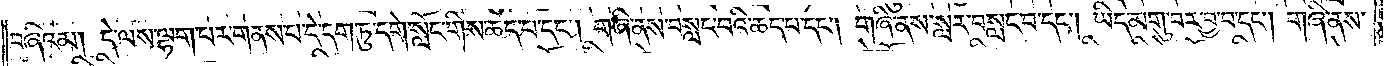བཞིའམ། དེ་ལས་ལྷག་པར་གནས་པ་དེ་དག་ཏུ་དགེ་སློང་གིས་ཆད་པ་དང༌། གཞི་ནས་བསླང་བའི་ཆད་པ་དང༌། གཞི་ནས་སླར་བསླང་བ་དང༌། ཡིད་མགུ་བར་བྱ་བ་དང༌། གཞི་ནས་
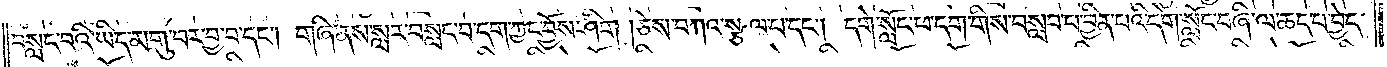བསླང་བའི་ཡིད་མགུ་བར་བྱ་བ་དང༌། གཞི་ནས་སླར་བསླང་བ་དག་ཀྱང་བྱོས་ཤིག །ཅེས་བཀའ་སྩལ་པ་དང༌། དགེ་སློང་པ་དག་གིས་བསླབ་པ་བྱིན་པའི་དགེ་སློང་བཞི་ལ་ཆད་པ་བྱེད་
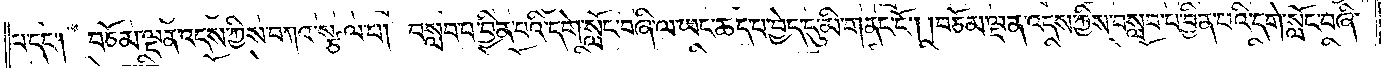པ་དང༌། བཅོམ་ལྡན་འདས་ཀྱིས་བཀའ་སྩལ་པ། བསླབ་པའི་བྱིན་པའི་དགེ་སློང་བཞི་ལ་ཡང་ཆད་པ་བྱེད་དུ་མི་གནང་ངོ༌། །བཅོམ་ལྡན་འདས་ཀྱིས་བསླབ་པ་བྱིན་པའི་དགེ་སློང་བཞི་
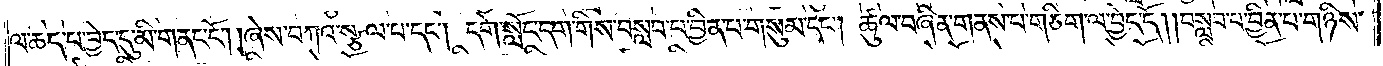ལ་ཆད་པ་བྱེད་དུ་མི་གནང་ངོ༌། །ཞེས་བཀའ་སྩལ་པ་དང༌། དགེ་སློང་དག་གིས་བསླབ་པ་བྱིན་པ་གསུམ་དང༌། ཚུལ་བཞིན་གནས་པ་གཅིག་ལ་བྱེད་དོ། །བསླབ་པ་བྱིན་པ་གཉིས་
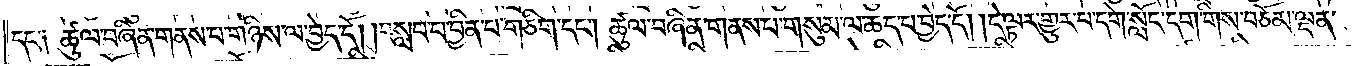དང༌། ཚུལ་བཞིན་གནས་པ་གཉིས་ལ་བྱེད་དོ། །བསླབ་པ་བྱིན་པ་གཅིག་དང༌། ཚུལ་བཞིན་གནས་པ་གསུམ་ལ་ཆད་པ་བྱེད་དོ། །དེ་ལྟར་གྱུར་པ་དགེ་སློང་དག་གིས་བཅོམ་ལྡན་
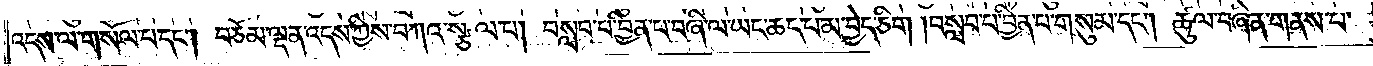འདས་ལ་གསོལ་པ་དང༌། བཅོམ་ལྡན་འདས་ཀྱིས་བཀའ་སྩལ་པ། བསླབ་པ་བྱིན་པ་བཞི་ལ་ཡང་ཆད་པ་མ་བྱེད་ཅིག། །བསླབ་པ་བྱིན་པ་གསུམ་དང༌། ཚུལ་བཞིན་གནས་པ་
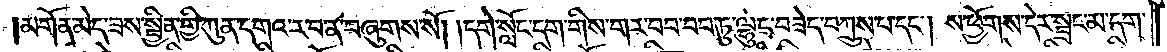མགོན་མེད་ཟས་སྦྱིན་གྱི་ཀུན་དགའ་ར་བ་ན་བཞུགས་སོ། །དགེ་སློང་དག་གིས་གར་བབ་བབ་ཏུ་ལྷུང་བཟེད་བཀྲུས་པ་དང༌། ས་ཕྱོགས་དེར་སྦྲང་མ་དག་
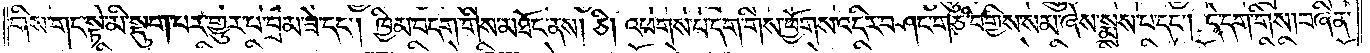གིས་གང་སྟེ་མི་སྡུག་པར་གྱུར་པ་བྲམ་ཟེ་དང༌། ཁྱིམ་བདག་གིས་མཐོང་ནས། ཅི། འཕགས་པ་དག་གིས་ཕྱོགས་འདིར་བཤང་གཅི་བགྱིས་སམ་ཞེས་སྨྲས་པ་དང༌། དེ་དག་གིས། བཞིན་
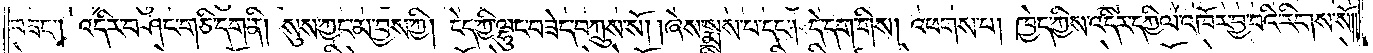བཟང༌། འདིར་བཤང་གཅི་དག་ནི། སུས་ཀྱང་མ་བྱས་ཀྱི། ངེད་ཀྱི་ལྷུང་བཟེད་བཀྲུས་སོ། །ཞེས་སྨྲས་པ་དང༌། དེ་དག་གིས། འཕགས་པ། ཁྱེད་ཀྱིས་འདིར་དཀྱིལ་འཁོར་བྱ་བའི་རིགས་སོ༎
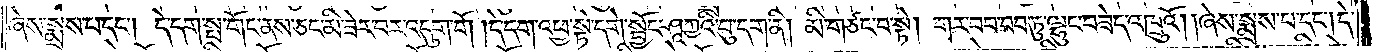ཞེས་སྨྲས་པ་དང༌། དེ་དག་སྤ་གོང་ནས་ཅང་མི་ཟེར་བར་འདུག་གོ །དེ་དག་འཕྱ་སྟེ་དགེ་སྦྱོང་ཤཱཀྱའི་བུ་དག་ནི། མི་གཙང་བ་སྟེ། གར་བབ་བབ་ཏུ་ལྷུང་བཟེད་འཁྲུའོ། །ཞེས་སྨྲས་པ་དང༌། དེ་
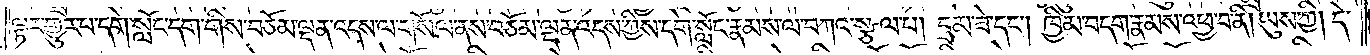ལྟར་གྱུར་པ་དགེ་སློང་དག་གིས་བཅོམ་ལྡན་འདས་ལ་གསོལ་ནས་བཅོམ་ལྡན་འདས་ཀྱིས་དགེ་སློང་རྣམས་ལ་བཀའ་སྩལ་པ། བྲམ་ཟེ་དང༌། ཁྱིམ་བདག་རྣམས་འཕྱ་བ་ནི། ཡུས་ཀྱི། དེ་
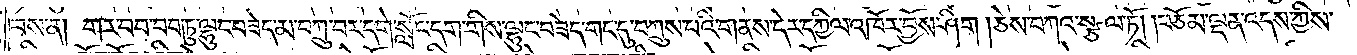བས་ན། གར་བབ་བབ་ཏུ་ལྷུང་བཟེད་མ་བཀྲུ་བར་དགེ་སློང་དག་གིས་ལྷུང་བཟེད་གང་དུ་བཀྲུས་པའི་གནས་དེར་དཀྱིལ་འཁོར་བྱོས་ཤིག །ཅེས་བཀའ་སྩལ་ཏོ། །བཅོམ་ལྡན་འདས་ཀྱིས་
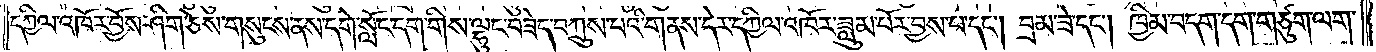དཀྱིལ་འཁོར་བྱོས་ཤིག་ཅེས་གསུངས་ནས་དགེ་སློང་དག་གིས་ལྷུང་བཟེད་བཀྲུས་པའི་གནས་དེར་དཀྱིལ་འཁོར་ཟླུམ་པོར་བྱས་པ་དང༌། བྲམ་ཟེ་དང༌། ཁྱིམ་བདག་དག་གཙུག་ལག་
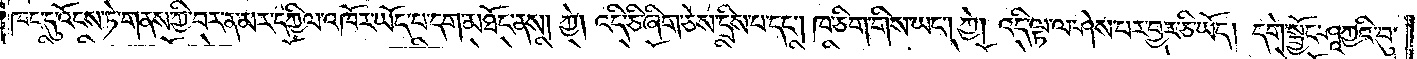ཁང་དུ་འོངས་ཏེ་གནས་ཀྱི་བར་ན་མར་དཀྱིལ་འཁོར་ཡོད་པ་དག་མཐོང་ནས། ཀྱེ། འདི་ཅི་ཞིག་ཅེས་དྲིས་པ་དང༌། ཁ་ཅིག་གིས་ཡང༌། ཀྱེ། འདི་ལྟ་ལ་ཤེས་པར་བྱར་ཅི་ཡོད། དགེ་སྦྱོང་ཤཱཀྱའི་བུ་
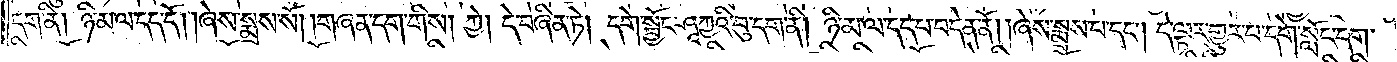དག་ནི། ཉི་མ་ལ་དད་དོ། །ཞེས་སྨྲས་སོ། །གཞན་དག་གིས། ཀྱེ། དེ་བཞིན་ཏེ། དགེ་སྦྱོང་ཤཱཀྱའི་བུ་དག་ནི། ཉི་མ་ལ་དད་པ་བདེན་ནོ། །ཞེས་སྨྲས་པ་དང༌། དེ་ལྟར་གྱུར་པ་དགེ་སློང་དག་
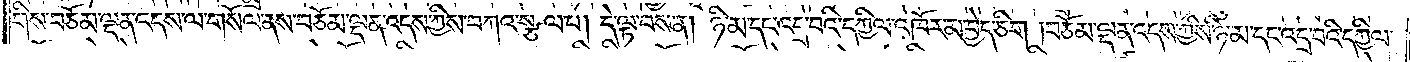གིས་བཅོམ་ལྡན་འདས་ལ་གསོལ་ནས་བཅོམ་ལྡན་འདས་ཀྱིས་བཀའ་སྩལ་པ། དེ་ལྟ་བས་ན། ཉི་མ་དང་འདྲ་བའི་དཀྱིལ་འཁོར་མ་བྱེད་ཅིག །བཅོམ་ལྡན་འདས་ཀྱིས་ཉི་མ་དང་འདྲ་བའི་དཀྱིལ་
